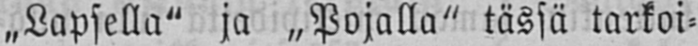„Lapsella" ja „Pojalla" tässä tarkoi-
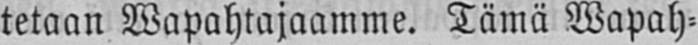tetaan Wapahtajaamme. Tämä Wapah-
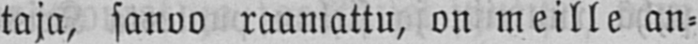taja, sanoo raamattu, on meille an-
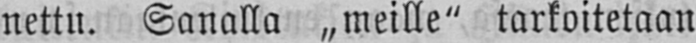nettu. Sanalla „meille" tarkoitetaan
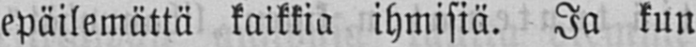epäilemättä kaikkia ihmisiä. Ja kun
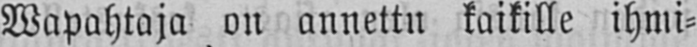Wapahtaja on annettu kaikille ihmi-
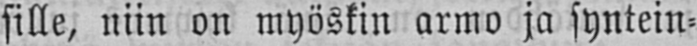sille, niin on myöskin armo ja syntein-
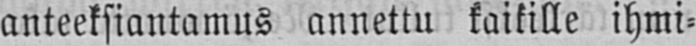anteeksiantamus annettu kaikille ihmi-
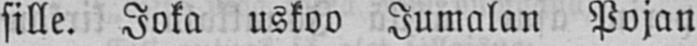sille. Joka uskoo Jumalan Pojan
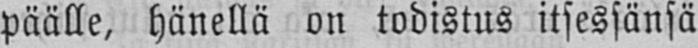päälle, hänellä on todistus itsessänsä
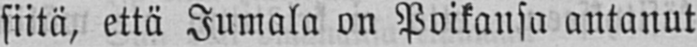siitä, että Jumala on Poikansa antanut
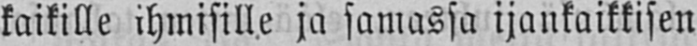kaikille ihmisille ja samassa ijankaikkisen
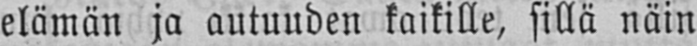elämän ja autuuden kaikille, sillä näin
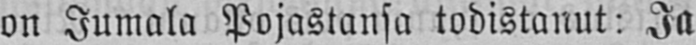on Jumala Pojastansa todistanut: Ja
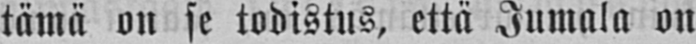tämä on se todistus, että Jumala on
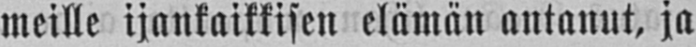meille ijankaikkisen elämän antanut, ja
